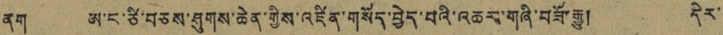ནག ཨ་ང་ཙི་བཅས་ཤུགས་ཆེན་གྱིས་འཛིན་གསོད་བྱེད་པའི་འཆར་གཞི་བཟོ་རྒྱུ། དེར་
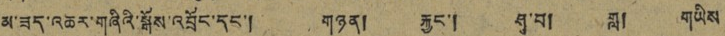མ་ཟད་འཆར་གཞིའི་སྒོས་འབྲོང་དང་། གཉན། རྐྱང་། ཤ་བ། གླ། གཡིས
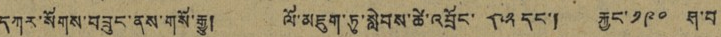དཀར་སོགས་བཟུང་ནས་གསོ་རྒྱུ། ལོ་མཇུག་ཏུ་སླེབས་ཚེ་འབྲོང་ ༤༢ དང་། རྐྱང་ ༡༩༠ ཤ་བ
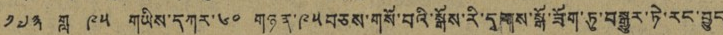༡༧༣ གླ ༩༥ གཡིས་དཀར་ ༦༠ གཉན་༩༥བཅས་གསོ་བའི་སྒོས་རི་དྭགས་སྒོ་ཟོག་ཏུ་བསྒྱུར་ཏེ་རང་བྱུང
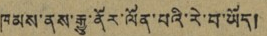ཁམས་ནས་རྒྱུ་ནོར་ལོན་པའི་རེ་བ་ཡོད།
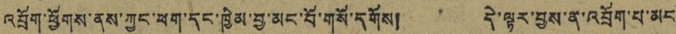འབྲོག་ཕྱོགས་ནས་ཀྱང་ཕག་དང་ཁྱིམ་བྱ་མང་པོ་གསོ་དགོས། དེ་ལྟར་བྱས་ན་འབྲོག་པ་མང
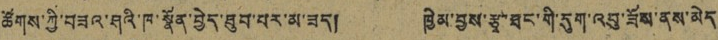ཚོགས་ཀྱི་བཟའ་ཤའི་ཁ་སྣོན་བྱེད་ཐུབ་པར་མ་ཟད། ཁྱིམ་བྱས་རྩྭ་ཐང་གི་དུག་འབུ་ཟོས་ནས་མེད་
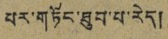པར་གཏོང་ཐུབ་པ་རེད།
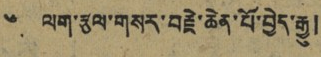༦. ལག་རྩལ་གསར་བརྗེ་ཆེན་པོ་བྱེད་རྒྱུ།
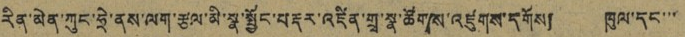རིན་མེན་ཀུང་ཧྲེ་ནས་ལག་རྩལ་མི་སྣ་སྦྱོང་བརྡར་འཛིན་གྲྭ་སྣ་ཚོགས་འཛུགས་དགོས། ཁུལ་དང་་་
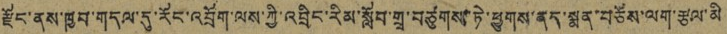རྫོང་ནས་ཁྱབ་གདལ་དུ་རོང་འབྲོག་ལས་ཀྱི་འབྲིང་རིམ་སློབ་གྲྭ་བཙུགས་ཏེ་ཕྱུགས་ནད་སྨན་བཅོས་ལག་རྩལ་མི
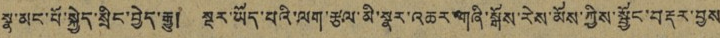སྣ་མང་པོ་སྐྱེད་སྲིང་བྱེད་རྒྱུ། སྡར་ཡོད་པའི་ལག་རྩལ་མི་སྣར་འཆར་གཞི་སྒོས་རེས་མོས་ཀྱིས་སྦྱོང་བརྡར་བྱས
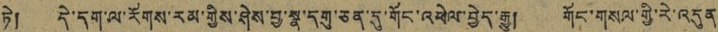ཏེ། དེ་དག་ལ་རོགས་རམ་གྱིས་ཤེས་བྱ་སྣ་དགུ་ཅན་དུ་གོང་འཕེལ་བྱེད་རྒྱུ། གོང་གསལ་གྱི་རེ་འདུན་
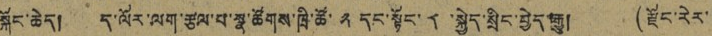སྐོང་ཆེད། ད་ལོར་ལག་རྩལ་པ་སྣ་ཚོགས་ཁྲི་ཚོ་ ༢ དང་སྟོང་ ༨ སྐྱེད་སྲིང་བྱེད་རྒྱུ། (རྫོང་རེར་
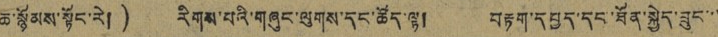ཆ་སྙོམས་སྟོང་རེ།) རིགས་པའི་གཞུང་ལུགས་དང་ཚོད་ལྟ། བརྟག་དཔྱད་དང་ཐོན་སྐྱེད་ཟུང་་་
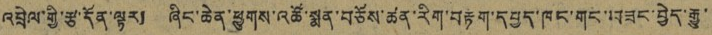འབྲེལ་གྱི་རྩ་དོན་ལྟར། ཞིང་ཆེན་ཕྱུགས་འཚོ་སྨན་བཅོས་ཚན་རིག་བརྟག་དཔྱད་ཁང་གང་བཟང་བྱེད་རྒྱུ་
